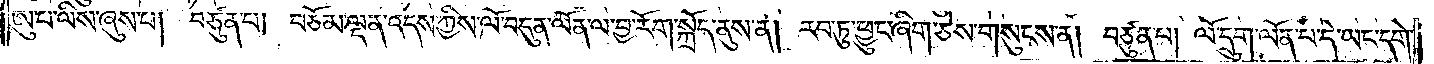ཨུ་པ་ལིས་ཞུས་པ། བཙུན་པ། བཅོམ་ལྡན་འདས་ཀྱིས་ལོ་བདུན་ལོན་ལ་བྱ་རོག་སྐྲོད་ནུས་ན། རབ་ཏུ་ཕྱུང་ཞིག་ཅེས་གསུངས་ན། བཙུན་པ། ལོ་དྲུག་ལོན་པ་དེ་ཡང་དགེ་
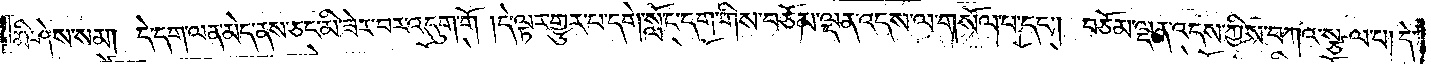མི་ཤེས་སམ། དེ་དག་ལན་མེད་ནས་ཅང་མི་ཟེར་བར་འདུག་གོ །དེ་ལྟར་གྱུར་པ་དགེ་སློང་དག་གིས་བཅོམ་ལྡན་འདས་ལ་གསོལ་པ་དང༌། བཅོམ་ལྡན་འདས་ཀྱིས་བཀའ་སྩལ་པ། དེ་
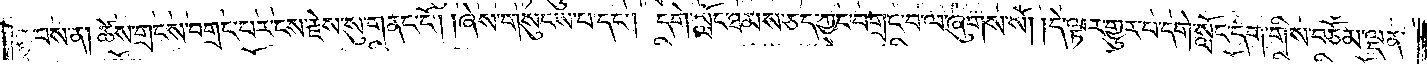ལྟ་བས་ན། ཚེས་གྲངས་བགྲང་པར་ངས་རྗེས་སུ་གནང་ངོ༌། །ཞེས་གསུངས་པ་དང༌། དགེ་སློང་ཐམས་ཅད་ཀྱང་བགྲང་བ་ལ་ཞུགས་སོ། །དེ་ལྟར་གྱུར་པ་དགེ་སློང་དག་གིས་བཅོམ་ལྡན་
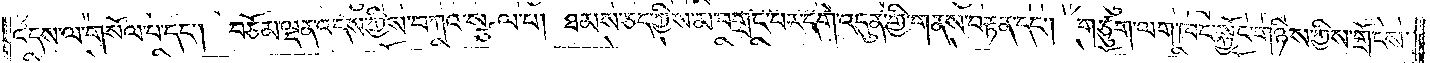འདས་ལ་གསོལ་པ་དང༌། བཅོམ་ལྡན་འདས་ཀྱིས་བཀའ་སྩལ་པ། ཐམས་ཅད་ཀྱིས་མ་བགྲང་པར་དགེ་འདུན་གྱི་གནས་བརྟན་དང༌། གཙུག་ལག་ཁང་སྐྱོང་གཉིས་ཀྱིས་གྲོངས་
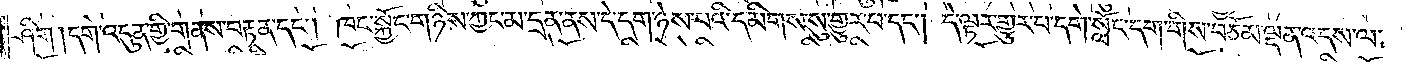ཤིག །དགེ་འདུན་གྱི་གནས་བརྟན་དང༌། ཁང་སྐྱོང་གཉིས་ཀྱང་མ་དྲན་ནས་དེ་དག་ཉེས་པའི་དམིགས་སུ་གྱུར་པ་དང༌། དེ་ལྟར་གྱུར་པ་དགེ་སློང་དག་གིས་བཅོམ་ལྡན་འདས་ལ་
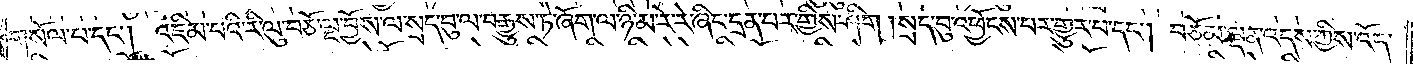གསོལ་པ་དང༌། འཇིམ་པའི་རི་ལུ་བཅོ་ལྔ་བྱོས་ལ་སྲད་བུ་ལ་བརྒྱུས་ཏེ་ཞོག་ལ་ཉི་མ་རེ་རེ་ཞིང་དྲན་པར་གྱིས་ཤིག །སྲད་བུ་འཕྱོངས་པར་གྱུར་པ་དང༌། བཅོམ་ལྡན་འདས་ཀྱིས་འོད་
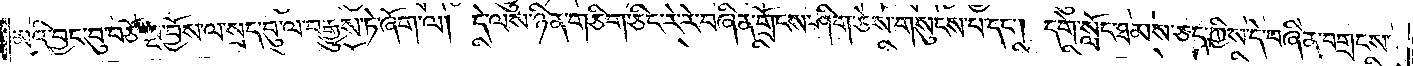མའི་བྱང་བུ་བཅོ་ལྔ་བྱོས་ལ་སྲད་བུ་ལ་བརྒྱུས་ཏེ་ཞོག་ལ། དེ་ལས་ཉིན་གཅིག་ཅིང་རེ་རེ་བཞིན་གྲོངས་ཤིག་ཅེས་གསུངས་པ་དང༌། དགེ་སློང་ཐམས་ཅད་ཀྱིས་དེ་བཞིན་བགྲངས་
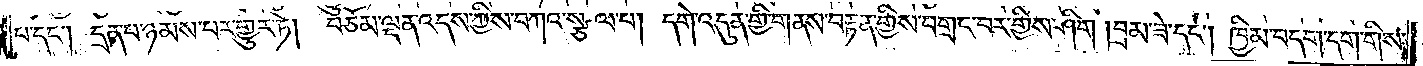པ་དང༌། དྲན་པ་ཉམས་པར་གྱུར་ཏེ། བཅོམ་ལྡན་འདས་ཀྱིས་བཀའ་སྩལ་པ། དགེ་འདུན་གྱི་གནས་བརྟན་གྱིས་བགྲང་བར་གྱིས་ཤིག །བྲམ་ཟེ་དང༌། ཁྱིམ་བདག་དག་གིས་
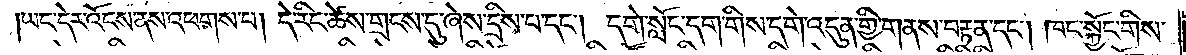ཡང་དེར་འོངས་ནས་འཕགས་པ། དེ་རིང་ཚེས་གྲངས་དུ་ཞེས་དྲིས་པ་དང༌། དགེ་སློང་དག་གིས་དགེ་འདུན་གྱི་གནས་བརྟན་དང༌། ཁང་སྐྱོང་གིས་
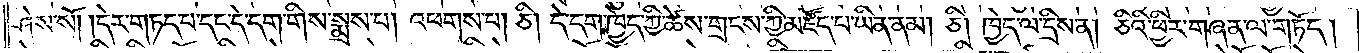ཤེས་སོ། །དེར་གཏད་པ་དང་དེ་དག་གིས་སྨྲས་པ། འཕགས་པ། ཅི། དེ་དག་ཁྱེད་ཀྱི་ཚེས་གྲངས་ཀྱི་མཛོད་པ་ཡིན་ནམ། ཅི། ཁྱེད་ལ་དྲིས་ན། ཅིའི་ཕྱིར་གཞན་ལ་གཏོད།
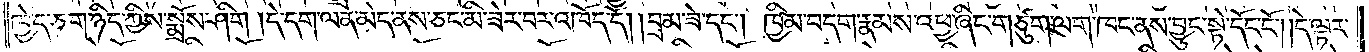ཁྱེད་ཅག་ཉིད་ཀྱིས་སྨྲོས་ཤིག །དེ་དག་ལན་མེད་ནས་ཅང་མི་ཟེར་བར་འཁོད་དོ། །བྲམ་ཟེ་དང༌། ཁྱིམ་བདག་རྣམས་འཕྱ་ཞིང་གཙུག་ལག་ཁང་ནས་བྱུང་སྟེ་དོང་ངོ༌། །དེ་ལྟར་
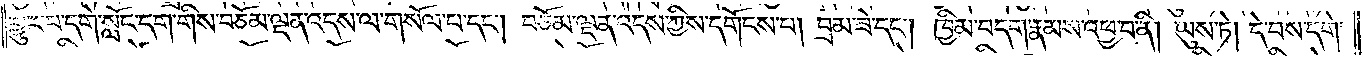གྱུར་པ་དགེ་སློང་དག་གིས་བཅོམ་ལྡན་འདས་ལ་གསོལ་པ་དང༌། བཅོམ་ལྡན་འདས་ཀྱིས་དགོངས་པ། བྲམ་ཟེ་དང༌། ཁྱིམ་བདག་རྣམས་འཕྱ་བ་ནི། ཡུས་ཏེ། དེ་བས་དགེ་
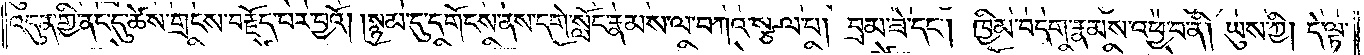འདུན་གྱི་ནང་དུ་ཚེས་གྲངས་བརྗོད་པར་བྱའོ། །སྙམ་དུ་དགོངས་ནས་དགེ་སློང་རྣམས་ལ་བཀའ་སྩལ་པ། བྲམ་ཟེ་དང༌། ཁྱིམ་བདག་རྣམས་འཕྱ་བ་ནི། ཡུས་ཀྱི། དེ་ལྟར་
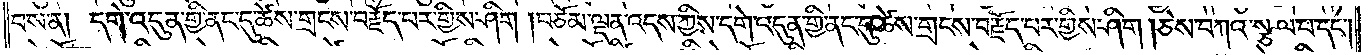བས་ན། དགེ་འདུན་གྱི་ནང་དུ་ཚེས་གྲངས་བརྗོད་པར་གྱིས་ཤིག །བཅོམ་ལྡན་འདས་ཀྱིས་དགེ་འདུན་གྱི་ནང་དུ་ཚེས་གྲངས་བརྗོད་པར་གྱིས་ཤིག །ཅེས་བཀའ་སྩལ་པ་དང༌།
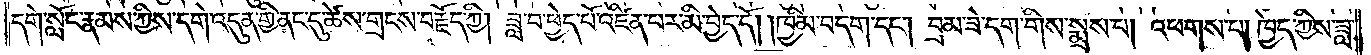དགེ་སློང་རྣམས་ཀྱིས་དགེ་འདུན་གྱི་ནང་དུ་ཚེས་གྲངས་བརྗོད་ཀྱི། ཟླ་བ་ཕྱེད་པོ་འཛིན་པར་མི་བྱེད་དོ། །ཁྱིམ་བདག་དང༌། བྲམ་ཟེ་དག་གིས་སྨྲས་པ། འཕགས་པ། ཁྱེད་ཀྱིས་ཟླ་
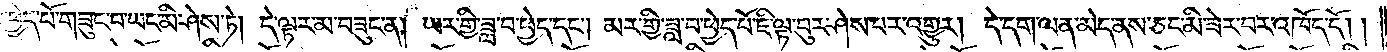བ་བྱེད་པོ་གཟུང་བ་ཡང་མི་ཤེས་ཏེ། དེ་ལྟར་མ་བཟུང་ན། ཡར་གྱི་ཟླ་བ་ཕྱེད་དང༌། མར་གྱི་ཟླ་བ་ཕྱེད་པོ་ཇི་ལྟ་བུར་ཤེས་པར་འགྱུར། དེ་དག་ལན་མེད་ནས་ཅང་མི་ཟེར་བར་འཁོད་དོ། །
